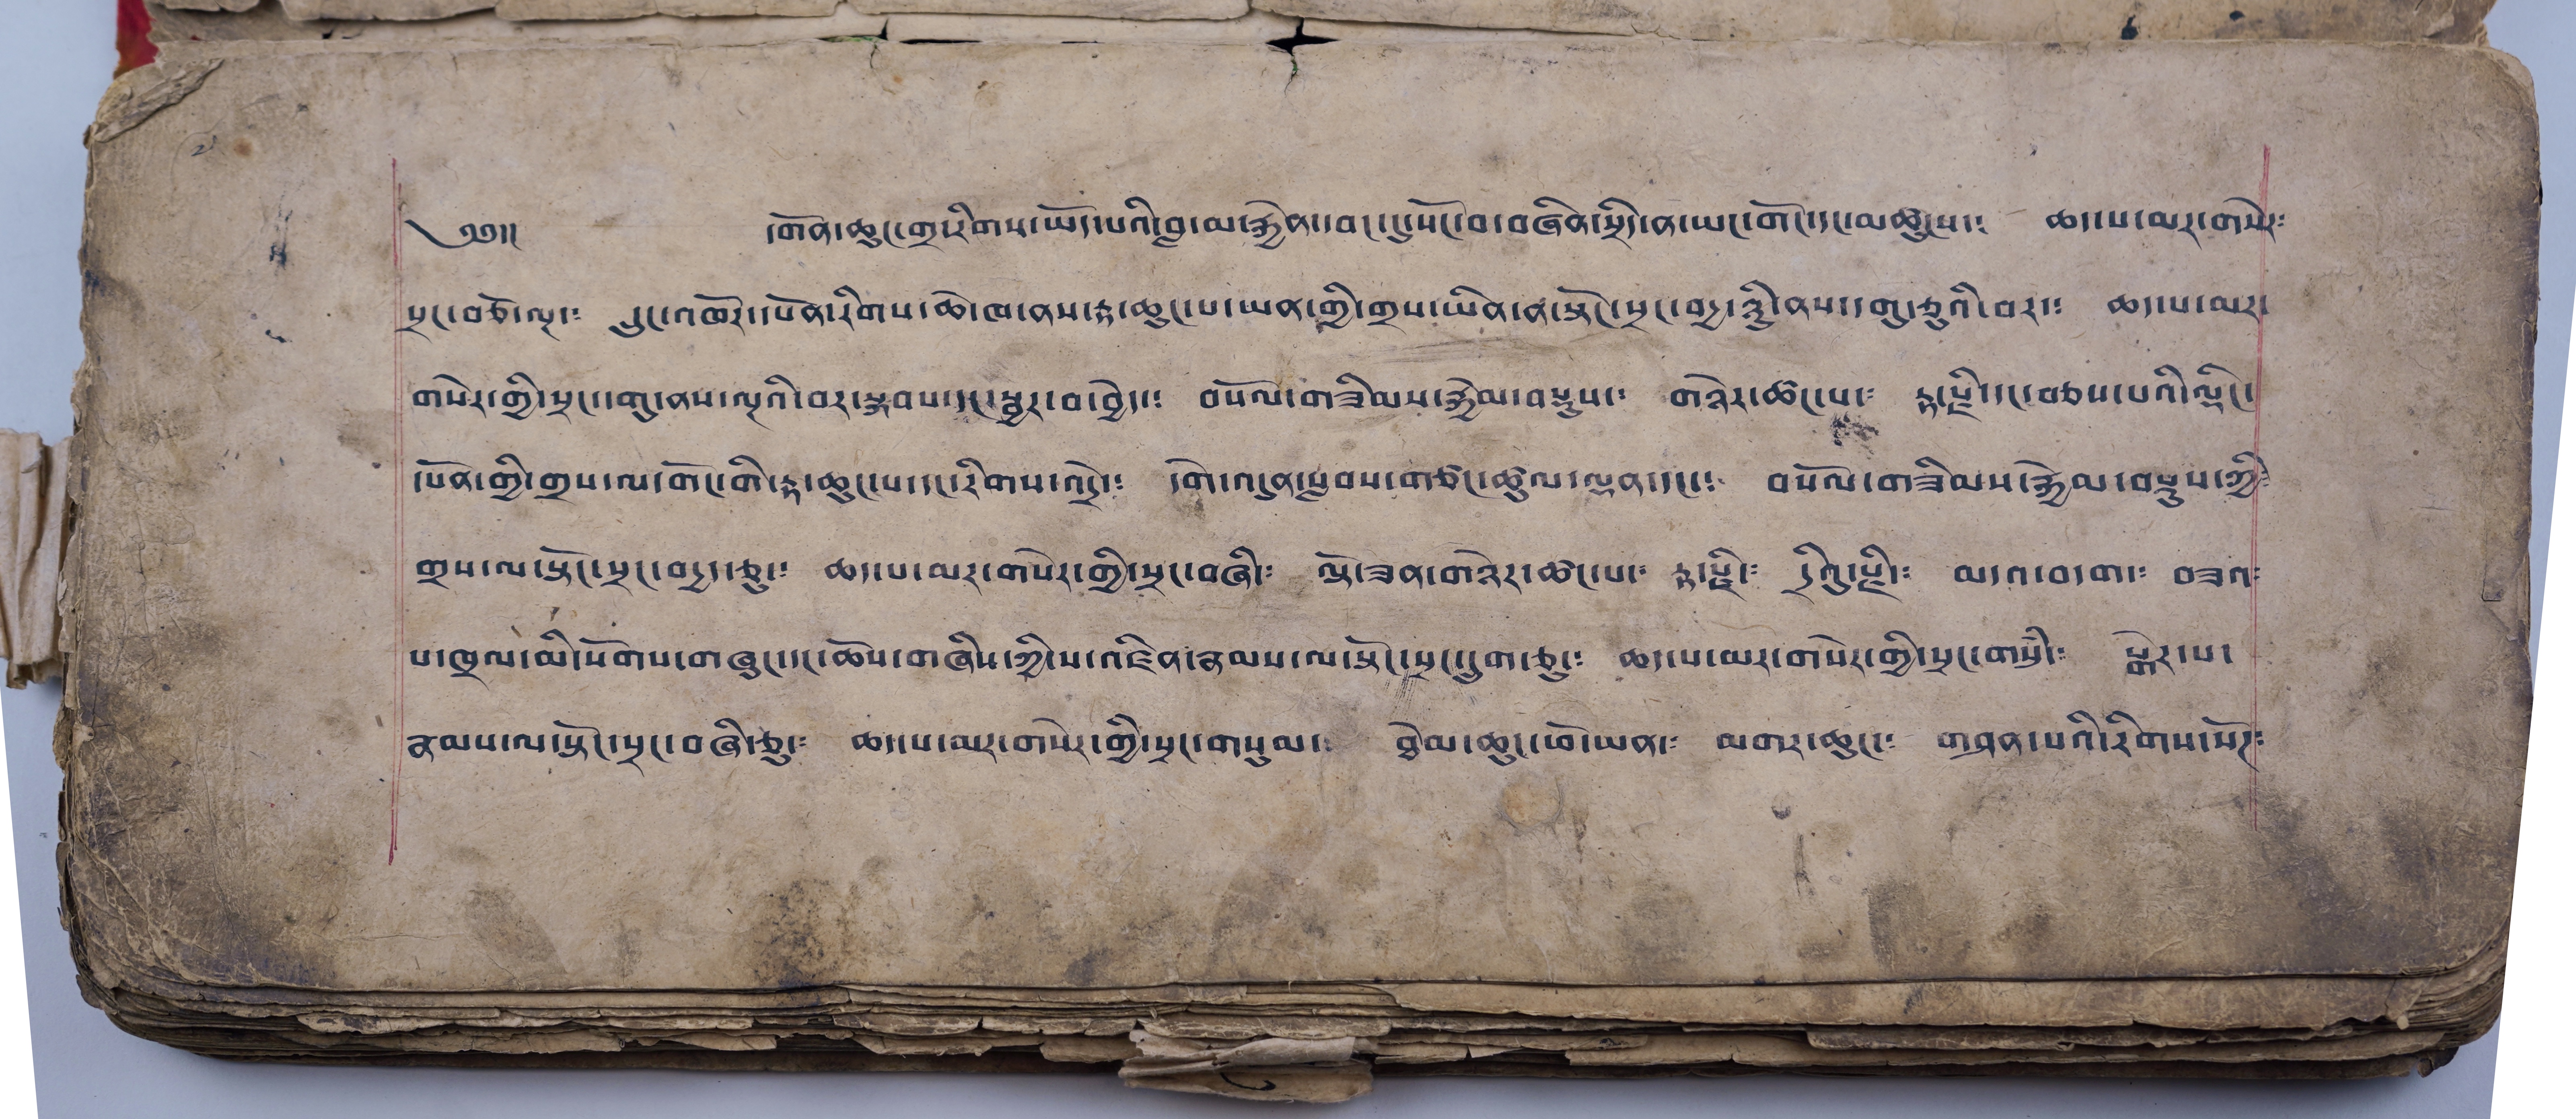༧
༄༅།། དགོན་ཆུང་གྲ་རིགས་ཡོད་པའི་བླ་མ་རྐྱེན་དབང་དུ་སོང་བ་བཞིན་སྲིད་ན་ཡང་གོང་དང་མཚུངས་༴ ཆད་པ་མར་གསེར༴
སྲང་བཅོ་ལྔ་༴ དྲུང་འཁོར་དཔོན་རིགས་ཆེ་ཁ་ནས་རྟ་ཆུང་པ་ཡན་གྱི་གྲས་ཡིན་ན་སྟོང་སྲང་བདྱ་ཉིུ་ནས་དགུ་ཅུའི་བར་༴ ཆད་པ་མར་
གསེར་གྱི་སྲང་དགུ་ནས་ལྔའི་བར་སྐབས་དང་སྦྱར་བ་བྱེད་༴ བསོལ་གཟིམས་སྐྱེམ་བསྡུས་༴ གཉེར་ཚང་པ་༴ རྟ་རྫི་དང་བཅས་པའི་ལྡིང་
དཔོན་གྱི་གྲས་ལ་གོང་གི་རྟ་ཆུང་པ་དང་རིགས་འདྲེ་༴ དགེ་འདུན་སླབས་གཙང་ཚུལ་ལྡན་དང་༴ བསོལ་གཟིམས་སྐྱེམ་བསྡུས་ཀྱི༴
གྲས་ལ་སྟོང་སྲང་བདྱ་ཅུ་༴ ཆད་པ་མར་གསེར་གྱི་སྲང་བཞི་༴ ལྟོ་ཟན་གཉེར་ཚང་པ་༴ རྟ་རྫི་༴ དྲིའུ་རྫི་༴ མདའ་བདག་༴ བཟའ༴
པ་ཁྲལ་མི་སོགས་གཞུང་དང་ཆོས་གཞིས་ཀྱི་ས་འཛིན་རྣམས་ལ་སྟོང་སྲང་དྲུག་ཅུ་༴ ཆད་པ་མར་གསེར་གྱི་སྲང་གསུཾ་༴ སྒེར་པ་
རྣམས་ལ་སྟོང་སྲང་བཞི་ཅུ་༴ ཆད་པ་མར་གསེར་གྱི་སྲང་གསུམ་༴ ཐེམ་ཆུང་ཕོ་ཡན་༴ མགར་ཆུང་༴ གཤན་པའི་རིགས་སོཊ༴
